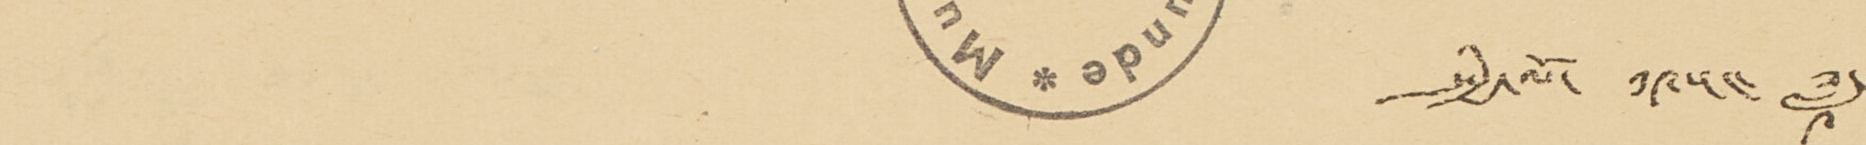1 སྤྱི་ལོ་ ༡༩༥༤ ཟླ་
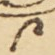༩
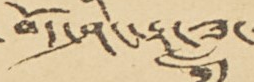བོད་ཤིང་རྟ་ཟླ་
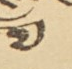༧
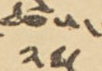ཚེས་
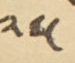༢༥
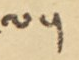ལ་།
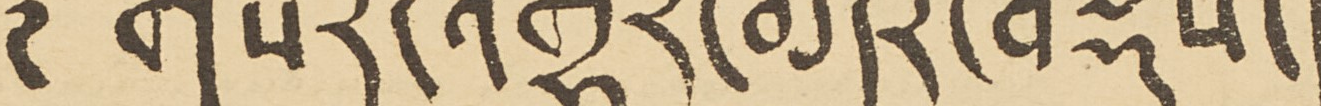གསར་འགྱུར་མདོར་བསྡུས་།
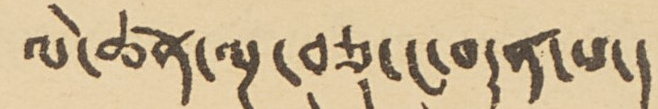ལེ་ཚན་ལྔ་བཅུ་ང་བདུན་པ་།
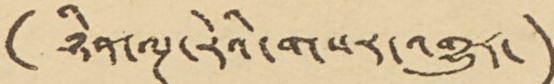(ཉིན་ལྔ་རེའི་གསར་འགྱུར་)
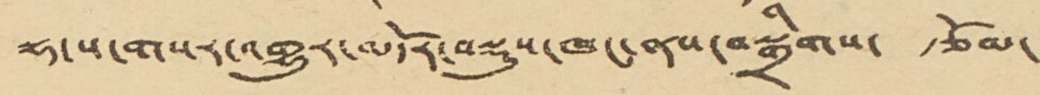ལྷ་ས་གསར་འགྱུར་མདོར་བསྡུས་ཁང་ནས་བསྒྲིགས་ རྩོམ་
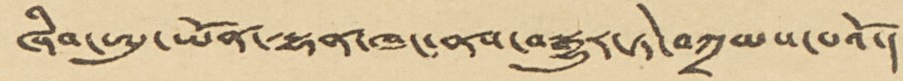ཞིབ་ཨུ་ཡོན་ལྷན་ཁང་ནས་བསྒྱུར་ཏེ་བཀྲམས་པའོ་།
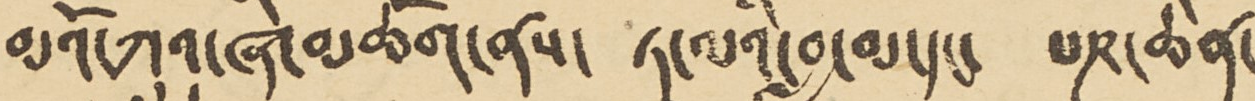མའོ་ཀྲུའུ་ཞི་མཆོག་ནས་ ཏཱ་ལའི་བླ་མ་དང་ པཎ་ཆེན་
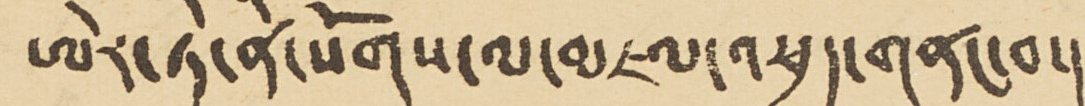ཨེར་ཏེ་ནི་སོགས་ལ་མཇལ་འཕྲད་གནང་བ་།
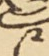༩
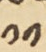༡༡
